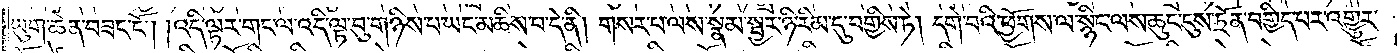ཡུག་ཆེན་བཟང་ངོ༌། །འདི་ལྟར་གང་ལ་འདི་ལྟ་བུ་གཉིས་པ་ཡང་མཆིས་པ་དེ་ནི། གསར་པ་ལས་སྣམ་སྦྱར་ཉི་རིམ་དུ་བགྱིས་ཏེ། དགེ་བའི་ཕྱོགས་ལ་སྙིང་ལས་ཆུང་ངུས་ཏྲོན་བགྱིད་པར་འགྱུར་
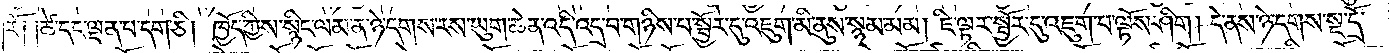རོ༑ ༑ཚེ་དང་ལྡན་པ་དག་ཅི། ཁྱོད་ཀྱིས་སྙིང་ལམ་ན་ཉེ་དགས་རས་ཡུག་ཆེན་འདི་འདྲ་བ་གཉིས་པ་སྦྱོར་དུ་འཇུག་མི་ནུས་སྙམ་མམ། ཇི་ལྟར་སྦྱོར་དུ་འཇུག་པ་ལྟོས་ཤིག །དེ་ནས་ཉེ་དགས་སྔ་དྲོ་
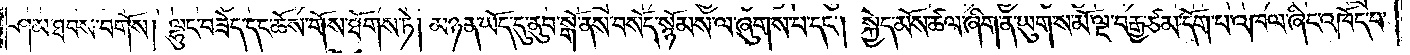ཤམ་ཐབས་བགོས། ལྷུང་བཟེད་དང་ཆོས་གོས་ཐོགས་ཏེ། མཉན་ཡོད་དུ་ནུབ་སྒོ་ནས་བསོད་སྙོམས་ལ་ཞུགས་པ་དང༌། སྐྱེད་མོས་ཚལ་ཞིག་ན་ཡུག་ས་མོ་ལྔ་བརྒྱ་ཙམ་དོག་པ་འཁལ་ཞིང་འཁོད་པ་
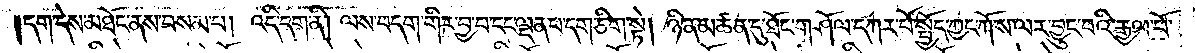དག་དེས་མཐོང་ནས་བསམ་པ། འདི་དག་ནི། ལས་བདག་གིར་བྱ་བ་དང་ལྡན་པ་དག་ཅིག་སྟེ། ཉིན་མཚན་དུ་ཐོང་གཤོལ་དཀར་པོ་སྤྱོད་ཀྱང་ཀོ་ས་ལར་བྱུང་བའི་རྒྱལ་པོ་
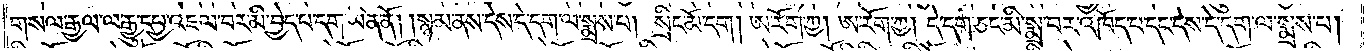གསལ་རྒྱལ་ལ་རྒྱུ་དཔྱ་འཇལ་བར་མི་བྱེད་པ་དག་ཡིན་ནོ། །སྙམ་ནས་དེས་དེ་དག་ལ་སྨྲས་པ། སྲིང་མོ་དག །ཨ་རོག་ཀྱ། ཨ་རོག་ཀྱ། དེ་དག་ཅང་མི་སྨྲ་བར་འཁོད་པ་དང་དེས་དེ་དག་ལ་སྨྲས་པ།
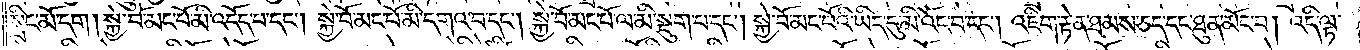སྲིང་མོ་དག །སྐྱེ་བོ་མང་པོ་མི་འདོད་པ་དང༌། སྐྱེ་བོ་མང་པོ་མི་དགའ་བ་དང༌། སྐྱེ་བོ་མང་པོ་ལ་མི་སྡུག་པ་དང༌། སྐྱེ་བོ་མང་པོའི་ཡིད་དུ་མི་འོང་བ་དང༌། འཇིག་རྟེན་ཐམས་ཅད་དང་ཐུན་མོང་བ། འདི་ལྟ་
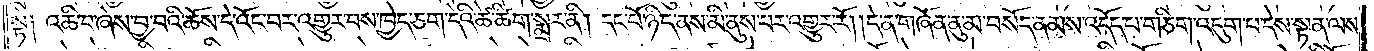སྟེ༑ འཆི་བ་ཞེས་བྱ་བའི་ཆོས་དེ་འོང་བར་འགྱུར་བས་ཁྱེད་ཅག་དེའི་ཚེ་ཚིག་སྨྲར་ནི། དང་པོ་ཉིད་ནས་མི་ནུས་པར་འགྱུར་རོ། །དེ་ན་གཞོན་ནུ་མ་བསོད་ནམས་འདོད་པ་གཅིག་འདུག་པ་དེས་སྟན་ལས་
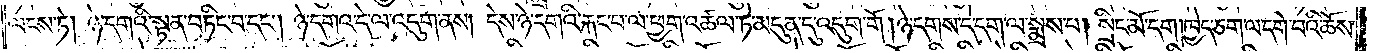ལངས་ཏེ། ཉེ་དགའི་སྟན་བཏིང་བ་དང༌། ཉེ་དགའ་དེ་ལ་འདུག་ནས། དེས་ཉེ་དགའི་རྐང་པ་ལ་ཕྱག་འཚལ་ཏེ་མདུན་དུ་འདུག་གོ །ཉེ་དགས་དེ་དག་ལ་སྨྲས་པ། སྲིང་མོ་དག །ཁྱེད་ཅག་ལ་དགེ་བའི་ཆོས་
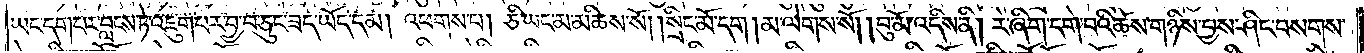ཡང་དག་པར་བླངས་ཏེ་འཇུག་པར་བྱ་བ་ཅུང་ཟད་ཡོད་དམ། འཕགས་པ། ཅི་ཡང་མ་མཆིས་སོ། །སྲིང་མོ་དག །མ་ལེགས་སོ། །བུ་མོ་འདིས་ནི། རེ་ཞིག་དགེ་བའི་ཆོས་གཉིས་བྱས་ཤིང་བསགས་
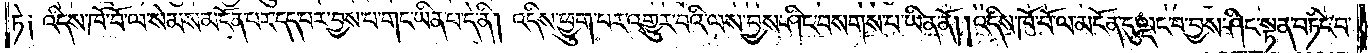ཏེ༑ འདིས་ཁོ་བོ་ལ་སེམས་མངོན་པར་དད་པར་བྱས་པ་གང་ཡིན་པ་དེ་ནི། འདིས་ཕྱུག་པར་འགྱུར་བའི་ལས་བྱས་ཤིང་བསགས་པ་ཡིན་ནོ། །འདིས་ཁོ་བོ་ལ་མངོན་དུ་ལྡང་བ་བྱས་ཤིང་སྟན་བཏིང་བ་
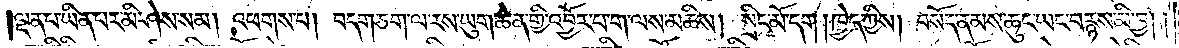ལྡན་པ་ཡིན་པར་མི་ཤེས་སམ། འཕགས་པ། བདག་ཅག་ལ་རས་ཡུག་ཆེན་གྱི་འབྱོར་བ་ག་ལས་མཆིས། སྲིང་མོ་དག །ཁྱེད་ཀྱིས། བསོད་ནམས་ཆུང་ཡང་བརྙས་མི་བྱ། །
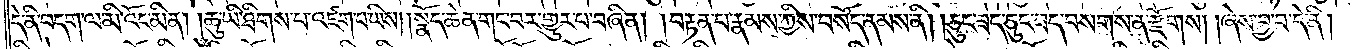དེ་ནི་བདག་ལ་མི་འོང་མིན། །ཆུ་ཡི་ཐིགས་པ་འཛག་པ་ཡིས། །སྣོད་ཆེན་གང་བར་གྱུར་པ་བཞིན། །བརྟན་པ་རྣམས་ཀྱིས་བསོད་ནམས་ནི། །ཅུང་ཟད་ཅུང་ཟད་བསགས་ན་རྫོགས། །ཞེས་བྱ་བ་དེ་ནི།
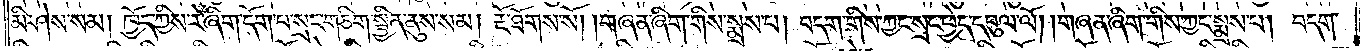མི་ཤེས་སམ། ཁྱོད་ཀྱིས་རེ་ཞིག་དོག་པ་སྲང་གཅིག་སྦྱིན་ནུས་སམ། རྔོ་ཐོགས་སོ། །གཞན་ཞིག་གིས་སྨྲས་པ། བདག་གིས་ཀྱང་སྲང་ཕྱེད་དབུལ་ལོ། །གཞན་ཞིག་གིས་ཀྱང་སྨྲས་པ། བདག་
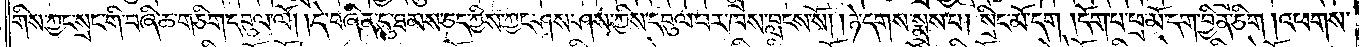གིས་ཀྱང་སྲང་གི་བཞི་ཆ་གཅིག་དབུལ་ལོ། །དེ་བཞིན་དུ་ཐམས་ཅད་ཀྱིས་ཀྱང་ཤས་ཤས་ཀྱིས་དབུལ་བར་ཁས་བླངས་སོ། །ཉེ་དགས་སྨྲས་པ། སྲིང་མོ་དག །དོག་པ་ཕྲ་མོ་དག་བྱིན་ཅིག །འཕགས་
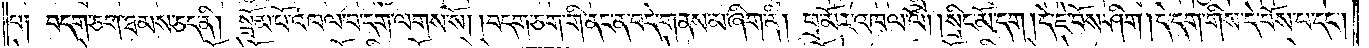པ༑ བདག་ཅག་ཐམས་ཅད་ནི། སྦོམ་པོ་འཁལ་བ་དག་ལགས་སོ། །བདག་ཅག་གི་ནང་ན་བདེ་གནས་མ་ཞིག་ནི། ཕྲ་མོར་འཁལ་ལོ། །སྲིང་མོ་དག །དེ་ཇེ་བོས་ཤིག །དེ་དག་གིས་དེ་བོས་པ་དང༌།
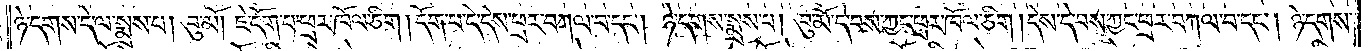ཉེ་དགས་དེ་ལ་སྨྲས་པ། བུ་མོ། ཇེ་དོག་པ་ཕྲར་ཁོལ་ཅིག །དོག་པ་དེ་དེས་ཕྲར་བཀལ་བ་དང༌། ཉེ་དགས་སྨྲས་པ། བུ་མོ་དེ་བས་ཀྱང་ཕྲར་ཁོལ་ཅིག །དེས་དེ་བས་ཀྱང་ཕྲར་བཀལ་བ་དང༌། ཉེ་དགས་
